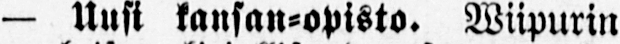— Uusi kansan-opisto. Wiipurin
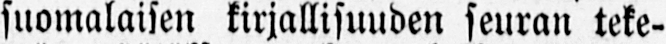suomalaisen kirjallisuuden seuran teke-
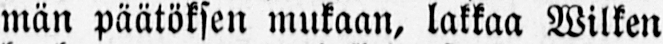män päätöksen mukaan, lakkaa Wilken
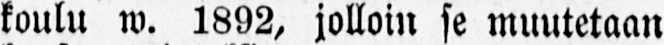koulu w. 1892, jolloin se muutetaan
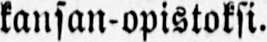kansan-opistoksi.
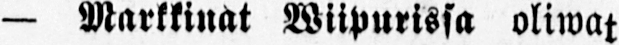— Markkinat Wiipurissa oliwat
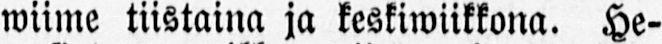wiime tiistaina ja keskiwiikkona. He-
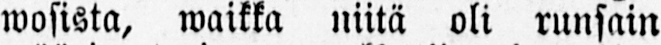wosista, waikka niitä oli runsain
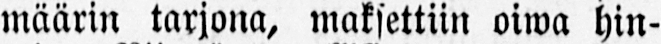määrin tarjona, maksettiin oiwa hin-
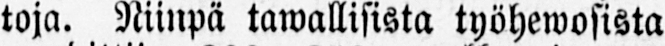toja. Niinpä tawallisista työhewosista
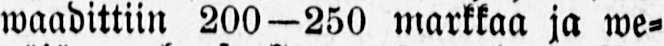waadittiin 200—250 markkaa ja we-
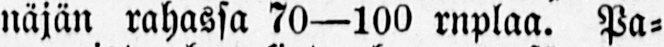näjän rahassa 70—100 ruplaa. Pa-
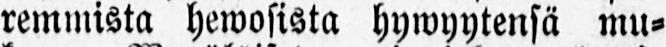remmista hewosista hywyytensä mu-
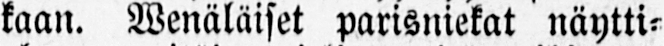kaan. Wenäläiset parisniekat näytti-
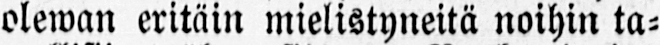olewan eritäin mielistyneitä noihin ta-
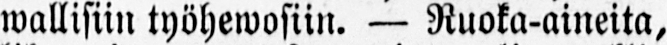wallisiin työhewosiin. — Ruoka-aineita,
